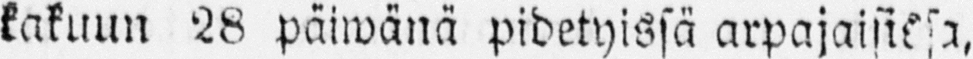kakuun 28 päiwänä pidetyissä arpajaisissa,
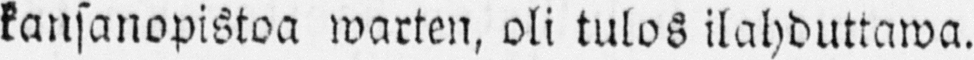kansanopistoa warten, oli tulos ilahduttawa.
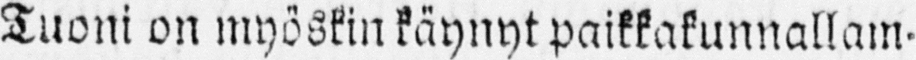Tuoni on myöskin käynyt paikkakunnallam-
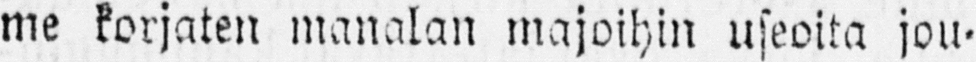me korjaten manalan majoihin useoita jou-
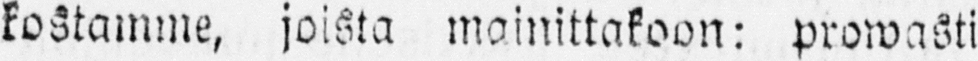kostamme, joista mainittakoon: prowasti
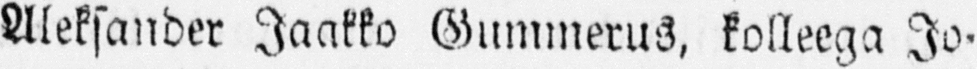Aleksander Jaakko Gummerus, kolleega Jo-
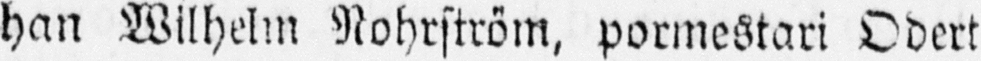han Wilhelm Nohrström, pormestari Odert
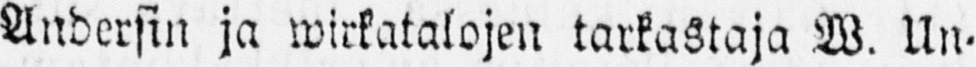Andersin ja wirkatalojen tarkastaja W. Un-
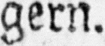gern.
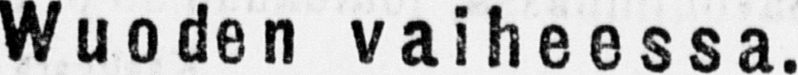Wuoden vaiheessa.
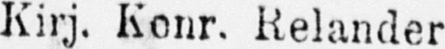Kirj. Konr. Relander.
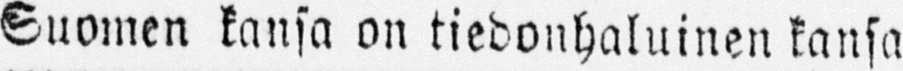Suomen kansa on tiedonhaluinen kansa
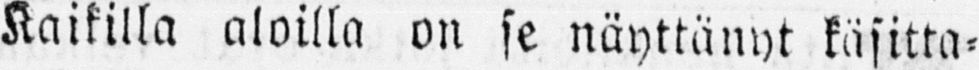kaikilla aloilla on se näyttänyt käsitta-
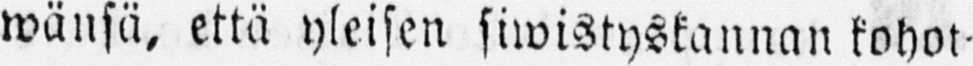wänsä, että yleisen siwistyskannan kohot-
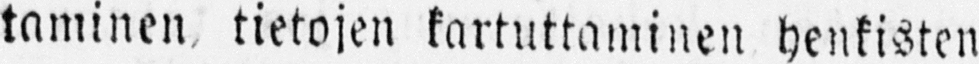taminen tietojen kartuttaminen henkisten
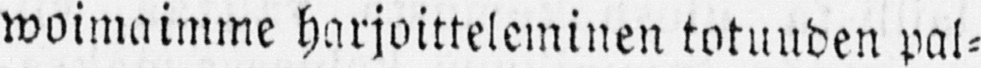woimaimme harjoitteleminen totuuden pal-
